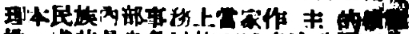理本民族內部事務上當家作 主 的積極
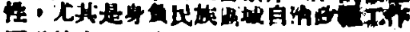性，尤其是身負民族區域自治政權工作
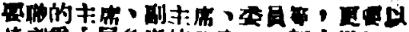要職的主席、副主席、委員等，更要以
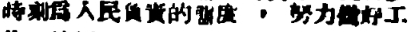時刻爲人民負責的態度 ，努力做好工
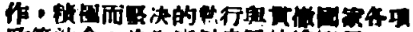作，積極而堅決的執行與貫徹國家各項
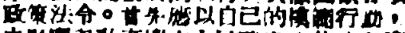政策法令。首先應以自己的模範行動，
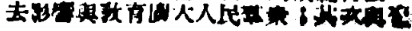去影響與敎育廣大人民群眾；其次與發
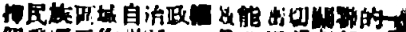揮民族區域自治政權效能密切關聯的一
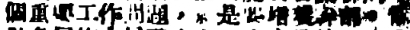個重要工作問題，就是要培養幹部，幫
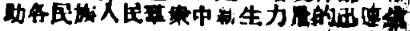助各民族人民羣衆中新生力量的迅速成
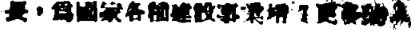長，爲國家各種建設事業培養更多的人
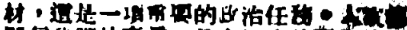材，這是一項重要的政治任務。人民都
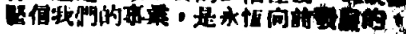堅信我們的事業，是永恆向前發展的，
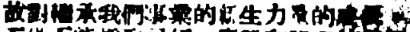故對繼承我們事業的新生力量的成長，
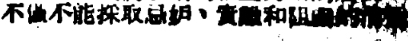不僅不能採取忌妒、責備和阻礙的不當
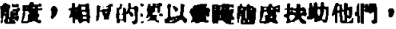態度，相反的要以愛護態度扶助他們，
